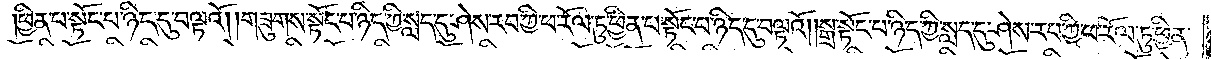ཕྱིན་པ་སྟོང་པ་ཉིད་དུ་བལྟའོ། །གཟུགས་སྟོང་པ་ཉིད་ཀྱི་སླད་དུ་ཤེས་རབ་ཀྱི་ཕ་རོལ་ཏུ་ཕྱིན་པ་སྟོང་པ་ཉིད་དུ་བལྟའོ། །སྒྲ་སྟོང་པ་ཉིད་ཀྱི་སླད་དུ་ཤེས་རབ་ཀྱི་ཕ་རོལ་ཏུ་ཕྱིན་
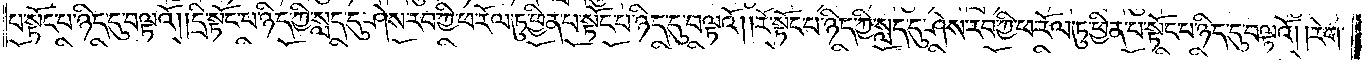པ་སྟོང་པ་ཉིད་དུ་བལྟའོ། །དྲི་སྟོང་པ་ཉིད་ཀྱི་སླད་དུ་ཤེས་རབ་ཀྱི་ཕ་རོལ་ཏུ་ཕྱིན་པ་སྟོང་པ་ཉིད་དུ་བལྟའོ། །རོ་སྟོང་པ་ཉིད་ཀྱི་སླད་དུ་ཤེས་རབ་ཀྱི་ཕ་རོལ་ཏུ་ཕྱིན་པ་སྟོང་པ་ཉིད་དུ་བལྟའོ། །རེག་
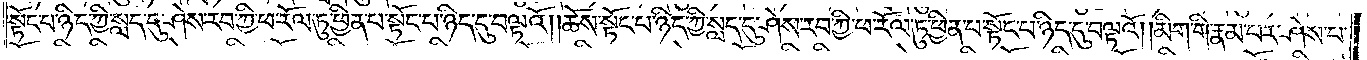སྟོང་པ་ཉིད་ཀྱི་སླད་དུ་ཤེས་རབ་ཀྱི་ཕ་རོལ་ཏུ་ཕྱིན་པ་སྟོང་པ་ཉིད་དུ་བལྟའོ། །ཆོས་སྟོང་པ་ཉིད་ཀྱི་སླད་དུ་ཤེས་རབ་ཀྱི་ཕ་རོལ་ཏུ་ཕྱིན་པ་སྟོང་པ་ཉིད་དུ་བལྟའོ། །མིག་གི་རྣམ་པར་ཤེས་པ་
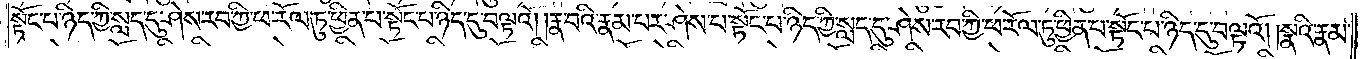སྟོང་པ་ཉིད་ཀྱི་སླད་དུ་ཤེས་རབ་ཀྱི་ཕ་རོལ་ཏུ་ཕྱིན་པ་སྟོང་པ་ཉིད་དུ་བལྟའོ། །རྣ་བའི་རྣམ་པར་ཤེས་པ་སྟོང་པ་ཉིད་ཀྱི་སླད་དུ་ཤེས་རབ་ཀྱི་ཕ་རོལ་ཏུ་ཕྱིན་པ་སྟོང་པ་ཉིད་དུ་བལྟའོ། །སྣའི་རྣམ་
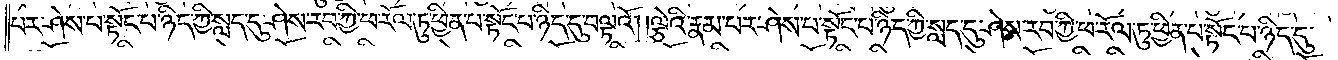པར་ཤེས་པ་སྟོང་པ་ཉིད་ཀྱི་སླད་དུ་ཤེས་རབ་ཀྱི་ཕ་རོལ་ཏུ་ཕྱིན་པ་སྟོང་པ་ཉིད་དུ་བལྟའོ། །ལྕེའི་རྣམ་པར་ཤེས་པ་སྟོང་པ་ཉིད་ཀྱི་སླད་དུ་ཤེས་རབ་ཀྱི་ཕ་རོལ་ཏུ་ཕྱིན་པ་སྟོང་པ་ཉིད་དུ་
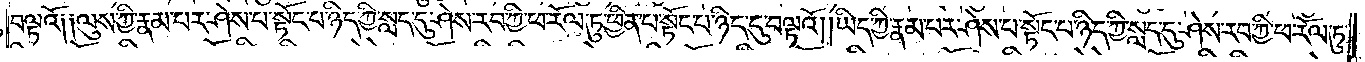བལྟའོ༑ ༑ལུས་ཀྱི་རྣམ་པར་ཤེས་པ་སྟོང་པ་ཉིད་ཀྱི་སླད་དུ་ཤེས་རབ་ཀྱི་ཕ་རོལ་ཏུ་ཕྱིན་པ་སྟོང་པ་ཉིད་དུ་བལྟའོ། །ཡིད་ཀྱི་རྣམ་པར་ཤེས་པ་སྟོང་པ་ཉིད་ཀྱི་སླད་དུ་ཤེས་རབ་ཀྱི་ཕ་རོལ་ཏུ་
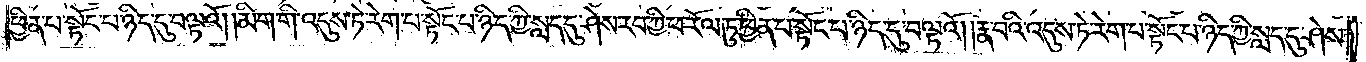ཕྱིན་པ་སྟོང་པ་ཉིད་དུ་བལྟའོ། །མིག་གི་འདུས་ཏེ་རེག་པ་སྟོང་པ་ཉིད་ཀྱི་སླད་དུ་ཤེས་རབ་ཀྱི་ཕ་རོལ་ཏུ་ཕྱིན་པ་སྟོང་པ་ཉིད་དུ་བལྟའོ། །རྣ་བའི་འདུས་ཏེ་རེག་པ་སྟོང་པ་ཉིད་ཀྱི་སླད་དུ་ཤེས་
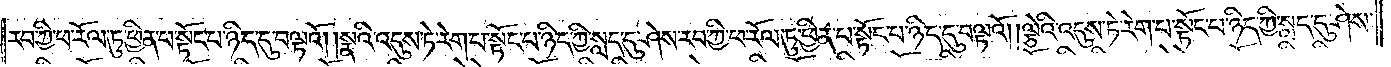རབ་ཀྱི་ཕ་རོལ་ཏུ་ཕྱིན་པ་སྟོང་པ་ཉིད་དུ་བལྟའོ། །སྣའི་འདུས་ཏེ་རེག་པ་སྟོང་པ་ཉིད་ཀྱི་སླད་དུ་ཤེས་རབ་ཀྱི་ཕ་རོལ་ཏུ་ཕྱིན་པ་སྟོང་པ་ཉིད་དུ་བལྟའོ། །ལྕེའི་འདུས་ཏེ་རེག་པ་སྟོང་པ་ཉིད་ཀྱི་སླད་དུ་ཤེས་
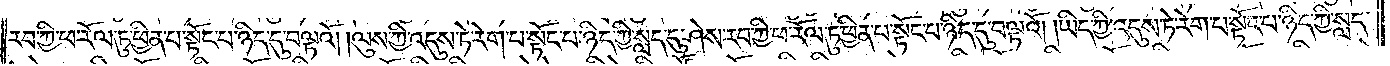རབ་ཀྱི་ཕ་རོལ་ཏུ་ཕྱིན་པ་སྟོང་པ་ཉིད་དུ་བལྟའོ། །ལུས་ཀྱི་འདུས་ཏེ་རེག་པ་སྟོང་པ་ཉིད་ཀྱི་སླད་དུ་ཤེས་རབ་ཀྱི་ཕ་རོལ་ཏུ་ཕྱིན་པ་སྟོང་པ་ཉིད་དུ་བལྟའོ། །ཡིད་ཀྱི་འདུས་ཏེ་རེག་པ་སྟོང་པ་ཉིད་ཀྱི་སླད་
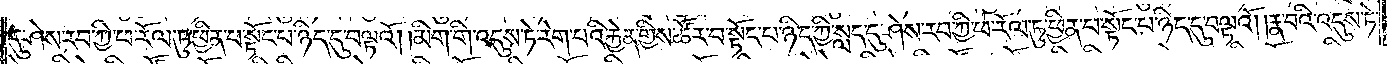དུ་ཤེས་རབ་ཀྱི་ཕ་རོལ་ཏུ་ཕྱིན་པ་སྟོང་པ་ཉིད་དུ་བལྟའོ། །མིག་གི་འདུས་ཏེ་རེག་པའི་རྐྱེན་གྱིས་ཚོར་བ་སྟོང་པ་ཉིད་ཀྱི་སླད་དུ་ཤེས་རབ་ཀྱི་ཕ་རོལ་ཏུ་ཕྱིན་པ་སྟོང་པ་ཉིད་དུ་བལྟའོ། །རྣ་བའི་འདུས་ཏེ་
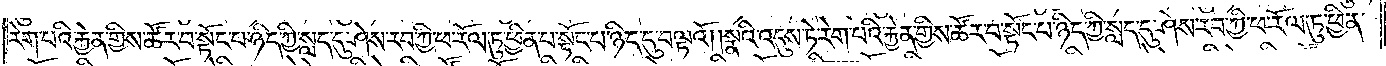རེག་པའི་རྐྱེན་གྱིས་ཚོར་བ་སྟོང་པ་ཉིད་ཀྱི་སླད་དུ་ཤེས་རབ་ཀྱི་ཕ་རོལ་ཏུ་ཕྱིན་པ་སྟོང་པ་ཉིད་དུ་བལྟའོ། །སྣའི་འདུས་ཏེ་རེག་པའི་རྐྱེན་གྱིས་ཚོར་བ་སྟོང་པ་ཉིད་ཀྱི་སླད་དུ་ཤེས་རབ་ཀྱི་ཕ་རོལ་ཏུ་ཕྱིན་
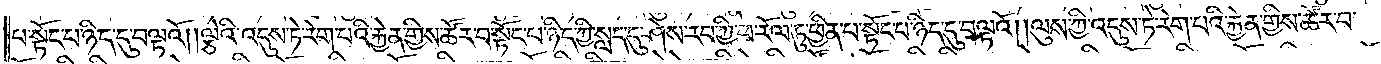པ་སྟོང་པ་ཉིད་དུ་བལྟའོ། །ལྕེའི་འདུས་ཏེ་རེག་པའི་རྐྱེན་གྱིས་ཚོར་བ་སྟོང་པ་ཉིད་ཀྱི་སླད་དུ་ཤེས་རབ་ཀྱི་ཕ་རོལ་ཏུ་ཕྱིན་པ་སྟོང་པ་ཉིད་དུ་བལྟའོ། །ལུས་ཀྱི་འདུས་ཏེ་རེག་པའི་རྐྱེན་གྱིས་ཚོར་བ་
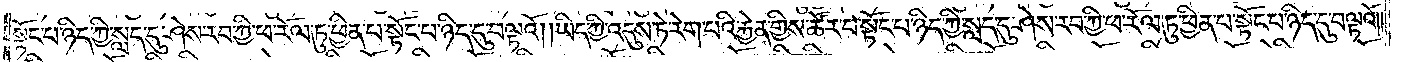སྟོང་པ་ཉིད་ཀྱི་སླད་དུ་ཤེས་རབ་ཀྱི་ཕ་རོལ་ཏུ་ཕྱིན་པ་སྟོང་པ་ཉིད་དུ་བལྟའོ། །ཡིད་ཀྱི་འདུས་ཏེ་རེག་པའི་རྐྱེན་གྱིས་ཚོར་བ་སྟོང་པ་ཉིད་ཀྱི་སླད་དུ་ཤེས་རབ་ཀྱི་ཕ་རོལ་ཏུ་ཕྱིན་པ་སྟོང་པ་ཉིད་དུ་བལྟའོ། །
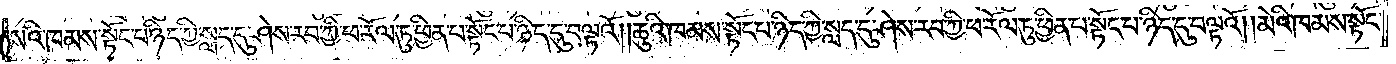སའི་ཁམས་སྟོང་པ་ཉིད་ཀྱི་སླད་དུ་ཤེས་རབ་ཀྱི་ཕ་རོལ་ཏུ་ཕྱིན་པ་སྟོང་པ་ཉིད་དུ་བལྟའོ། །ཆུའི་ཁམས་སྟོང་པ་ཉིད་ཀྱི་སླད་དུ་ཤེས་རབ་ཀྱི་ཕ་རོལ་ཏུ་ཕྱིན་པ་སྟོང་པ་ཉིད་དུ་བལྟའོ། །མེའི་ཁམས་སྟོང་
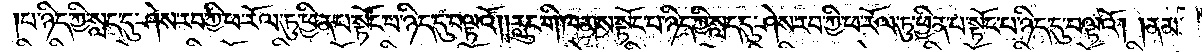པ་ཉིད་ཀྱི་སླད་དུ་ཤེས་རབ་ཀྱི་ཕ་རོལ་ཏུ་ཕྱིན་པ་སྟོང་པ་ཉིད་དུ་བལྟའོ། །རླུང་གི་ཁམས་སྟོང་པ་ཉིད་ཀྱི་སླད་དུ་ཤེས་རབ་ཀྱི་ཕ་རོལ་ཏུ་ཕྱིན་པ་སྟོང་པ་ཉིད་དུ་བལྟའོ། །ནམ་
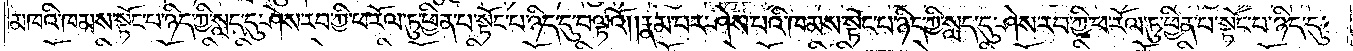མཁའི་ཁམས་སྟོང་པ་ཉིད་ཀྱི་སླད་དུ་ཤེས་རབ་ཀྱི་ཕ་རོལ་ཏུ་ཕྱིན་པ་སྟོང་པ་ཉིད་དུ་བལྟའོ། །རྣམ་པར་ཤེས་པའི་ཁམས་སྟོང་པ་ཉིད་ཀྱི་སླད་དུ་ཤེས་རབ་ཀྱི་ཕ་རོལ་ཏུ་ཕྱིན་པ་སྟོང་པ་ཉིད་དུ་
